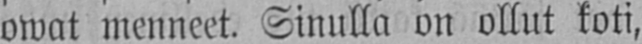owat menneet. Sinulla on ollut koti,
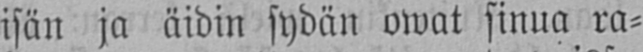isän ja äidin sydän owat sinua ra-
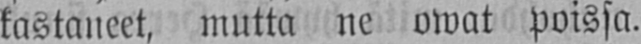kastaneet, mutta ne owat poissa.
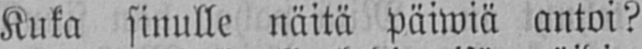Kuka sinulle näitä päiwiä antoi?
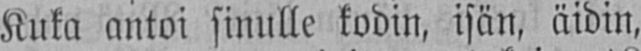Kuka antoi sinulle kodin, isän, äidin,
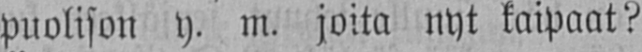puolison y. m. joita nyt kaipaat?
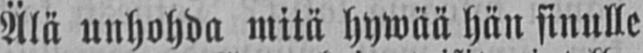Älä unhohda mitä hywää hän sinulle
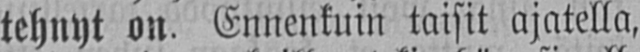tehnyt on. Ennenkuin taisit ajatella,
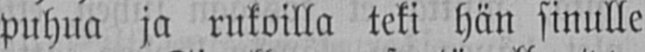puhua ja rukoilla teki hän sinulle
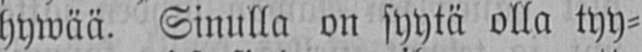hywää, Sinulla on syytä olla tyy-
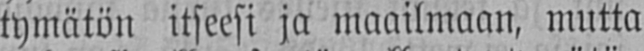tymätön itseesi ja maailmaan, mutta
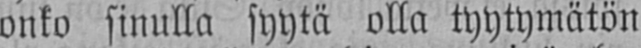onko sinulla syytä olla tyytymätön
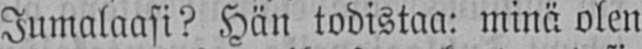Jumalaasi? Hän todistaa: minä olen
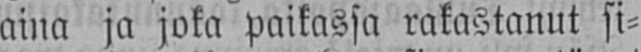aina ja joka paikassa rakastanut si-
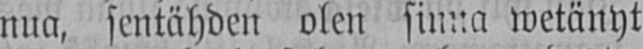nua, sentähden olen sinua wetänyt
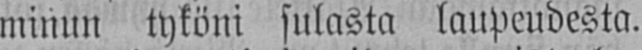minun tyköni sulasta laupeudesta.
